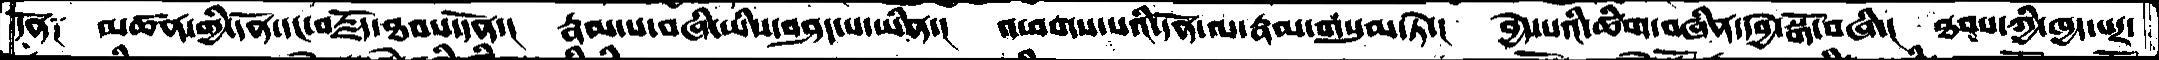དོན༑  མཚན་གྱི་དོན་དང་བརྗོད་ཐབས་དོན་།  རྣམ་པ་བཞི་ཡིས་བཤད་པ་ཡིན་།  འཕགས་པའི་དོན་ལ་རྣམ་གསུམ་ཏེ་།  བྱེད་པའི་ཚིག་བཞིན་དབྱེ་སྒོ་བཞི་།  ཐབས་ཀྱི་ཁྱད་པར་
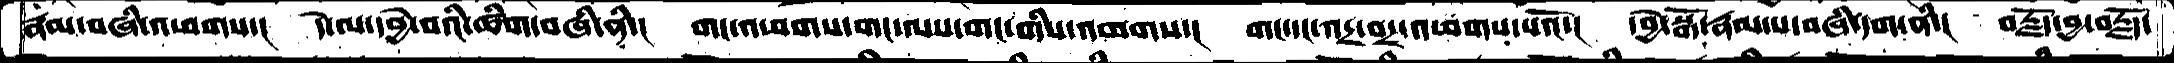རྣམ་བཞི་འཕགས་་།  དེ་ལ་དབྱེ་བའི་ཚིག་བཞི་ནི་།  གང་འཕགས་གང་ལས་གང་གིས་འགགས་།  གང་དང་འདྲ་བར་འཕགས་པའོ་།  དབྱེ་སྒོ་རྣམ་པ་བཞི་དག་ནི་།  བརྗོད་བྱ་བརྗོད་
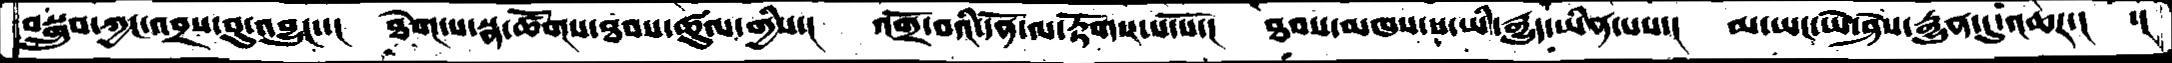བསྒྲུབ་ཀྱང་འབྲས་བུ་འབྱུང་་།  ཐེག་པ་སྣ་ཚོགས་ཐབས་ཚུལ་གྱིས་།  འགྲོ་བའི་དོན་ལ་རྟོགས་པ་པོ་།   ཐབས་མཁས་པ་ཡི་རྒྱུད་ཡིན་པས་།  མ་ཡང་ཡེ་ཤེས་རྒྱུན་དུ་འཆར་།  ་།
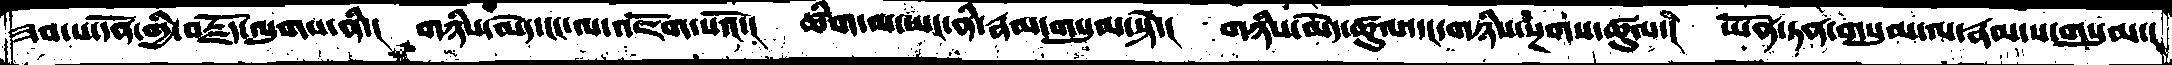ཟབ་པ་དོན་གྱི་བརྗོད་ལུགས་ནི་།  གཉིས་མེད་ངང་ལ་འཇོག་པའོ་།  ཚིག་མ་ཡང་ནི་རྣམ་གསུམ་སྟེ་།  གཉིས་མེད་ཚུལ་དང་གཉིས་སྔགས་ཚུལ་།  ཡོན་ཏན་གསུམ་ལ་རྣམ་པ་གསུམ་།
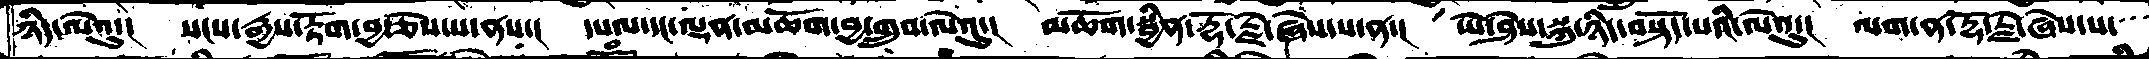ཉིད་ལེའུ་།  སངས་རྒྱས་རྟོག་བྱ་ཅེས་པ་ནས་།  དཔལ་དང་ལྡན་མཆོག་བྱ་གྲུབ་ལེའུ་།  མཆོག་སྦྱིན་རྡོ་རྗེ་ཞེས་པ་ན་།  ཡེ་ཤེས་སྐུ་ཉིད་བསྟོད་པའི་ལེའུ་།  ལག་ན་རྡོ་རྗེ་ཞེས་པ་
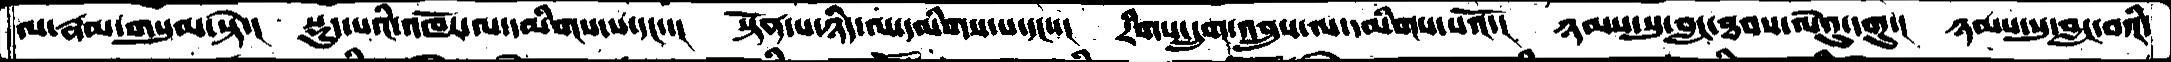ལ་རྣམ་གསུམ་སྟེ་།  སྡུད་པའི་འཁོར་ལ་དམིགས་པ་དང་་།  སྟོན་པ་ཉིད་ལ་དམིགས་པ་དང་་།  རིགས་དྲུག་འབྲུས་ལ་དམིགས་པའོ་།  ཉམས་སུ་བླང་ཐབས་ལེའུ་དགུ་།  ཉམས་སུ་བླང་བའི་
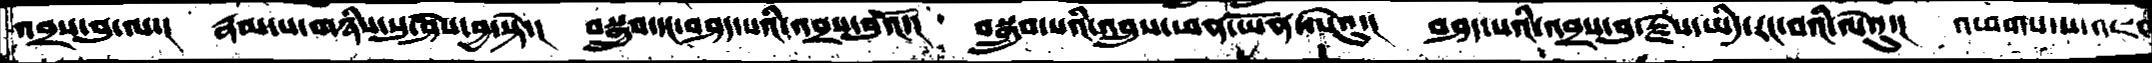འབྲས་བུ་ལ་།  རྣམ་པ་གཉིས་སུ་ཤེས་བྱ་སྟེ་།  བསྒྲུབ་དང་བཤད་པའི་འབྲས་བུའོ་།  བསྒྲུབ་པའི་འབྲུས་ཕན་ཡོན་ལེའུ་།  བཤད་པའི་འབྲས་བུ་རྗེས་ཡིད་རང་བའི་ལེའུ་།  འཕགས་པ་འཇམ
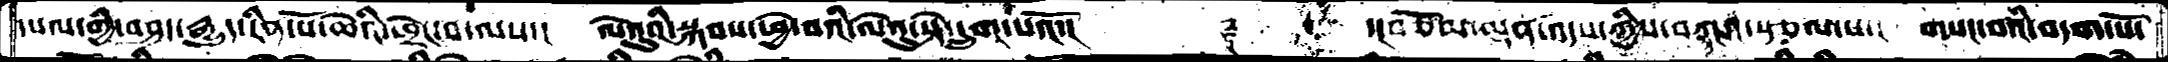དཔལ་གྱི་བཤད་རྒྱུད་རིན་པོ་ཆེའི་ཕྲེང་བ་ལས་།  ལེའུའི་སྐབས་ཕྱེ་བའི་ལེའུ་སྟེ་དྲུག་པའོ་།      ༈     ་།བཅོམ་ལྡན་འདས་ཀྱིས་བཀའ་སྩལ་པ་།  གསང་བའི་བདག་པོ་
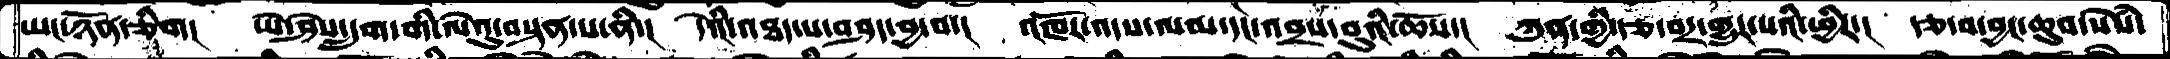ཡང་ཉོན་ཅིག།  ཡེ་ཤེས་དྲུག་གི་ལེའུ་བསྟན་པ་ནི་།  དེའི་འཐད་པ་བཤད་བྱ་བ་།  འཁོར་འདས་ལམ་དང་འབྲས་བུའི་ཆོས་།  ཀུན་གྱི་རྩ་བར་གྱུར་པའི་ཕྱིར་།  རྩ་བ་བྱང་ཆུབ་སེཾས་
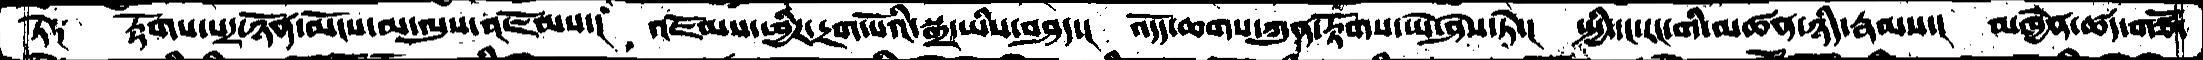ཏེ༑    རྟོགས་པར་ཉོན་མོངས་མ་ལུས་འཇོམས་།  འཇོམས་ཕྱིར་དྲག་པོའི་སྒྲ་ཡིས་བཤད་།  འདོད་ཆགས་ཀུན་རྟོགས་ཡེ་ཤེས་ཏེ་།  སྤྱི་དང་རང་གི་མཚན་ཉིད་རྣམས་།  མཁྱེན་ཚད་གཙོ་
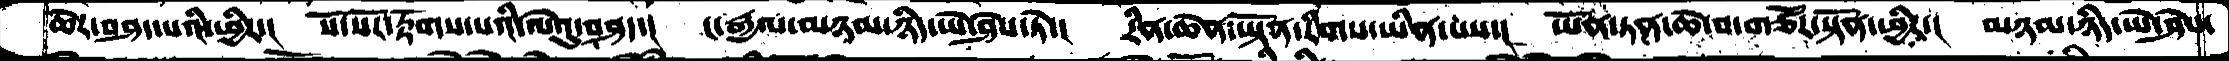ཆེར་བཤད་པའི་ཕྱིར་།  སོ་སོར་རྟོགས་པའི་ལེའུ་བཤད་།  ང་རྒྱལ་མཉམ་ཉིད་ཡེ་ཤེས་ཏེ་།  རིན་ཆེན་ཡྟོན་རིགས་ཡིན་པས་།  ཡོན་ཏན་ཆེ་བ་གཙོར་སྟོན་ཕྱིར་།   མཉམ་ཉིད་ཡེ་ཤེས་
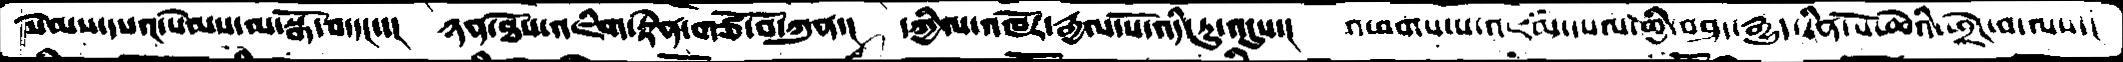སེམས་དཔའ་སེམས་མ་སྒོ་བ་དང་་།  ཉན་ཐོས་འཇིག་རྟེན་གཙོ་བོ་ཀུན་།  དཀྱིལ་འཁོར་རྒྱལ་པོ་འདི་རུ་འདུས་།   འཕགས་པ་འཇམ་དཔལ་གྱི་བཤད་རྒྱུད་རིན་པོ་ཆེའི་ཕྲེང་བ་ལས་།
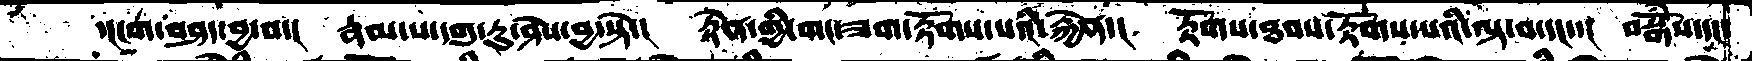་།ངག་བཤད་བྱ་བ་།   རྣམ་པ་དགུ་རུ་ཤེས་བྱ་སྟེ་།  རྟེན་གྱི་གང་ཟག་རྟོགས་པའི་རྐྱེན་།   རྟོགས་ཐབས་རྟོགས་པའི་ལྟ་བ་དང་་།  བསྒོཾས་དང་
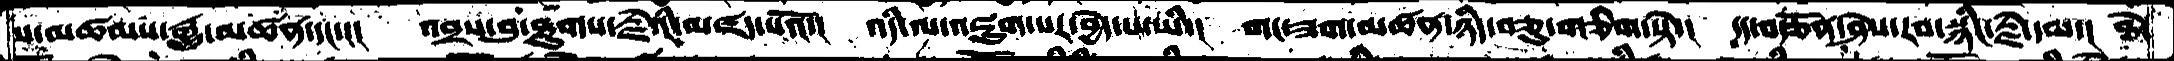ས་མཚམས་རྒྱུ་མཚན་དང་།།།    འབྲས་བུ་ཐུགས་རྗེའི་མཛད་པའོ་།  འདི་ལ་འཇུག་པར་བྱེད་པ་ཡི་།  གང་ཟག་མཚན་ཉིད་བཅུ་གཅིག་སྟེ་།  དད་བརྩོན་ཤེས་རབ་སྙིང་རྗེ་དམ་།  ཐེ་
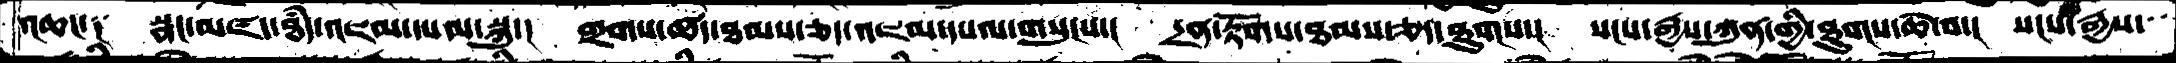འཆང་༑  སྣང་མཛད་ཐདཾ་འཇམ་དཔལ་སྐུ་།  གྲགས་ཚད་ཐམས་ཅད་འཇམ་དཔལ་གསུངས་།  དྲན་རྟོགས་ཐམས་ཅད་ཐུགས་།  སངས་རྒྱས་ཀུན་གྱི་ཐུགས་ཆེ་བ་།  སངས་རྒྱས་
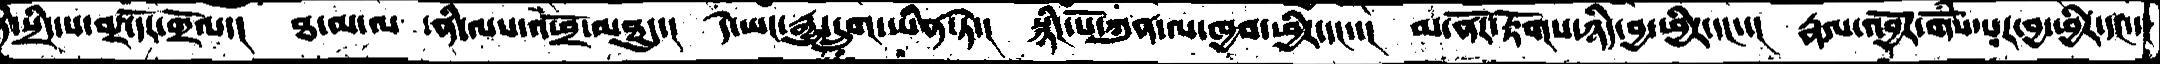དེ་སྲིད་པ་བར་དོར་གྲོལ་།  ཐ་མ་ལ་ནི་ལས་འཕྲོ་མཐུད་།  དེ་ཡང་རྒྱུ་དྲུག་ཡིན་ཏེ་།  སྙིང་པོ་ཀུན་ལ་ཁྱབ་ཕྱིར་དང་་།  མ་ནོར་རྟོགས་ཉིད་བྱ་ཕྱིར་དང་་།  རྣལ་འབྱོར་གོཾས་པར་བྱ་ཕྱིར་དང་་།
